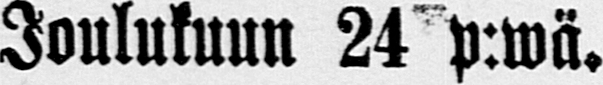Joulukuun 24 p:wä.
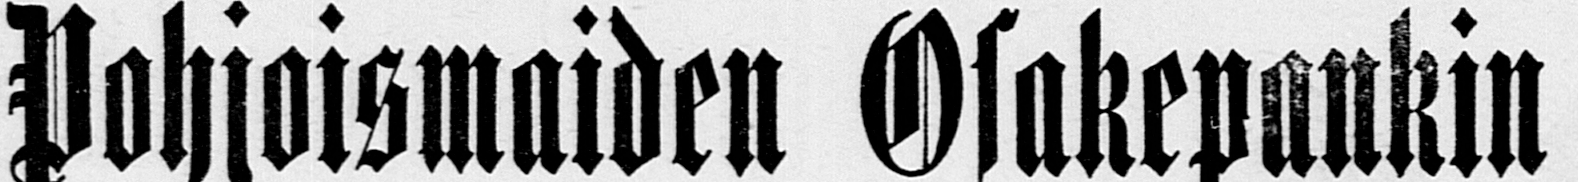Pohjoismaiden Osakepankin
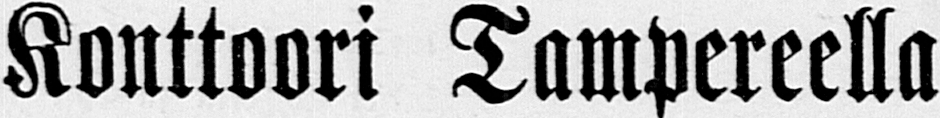Konttoori Tampereella
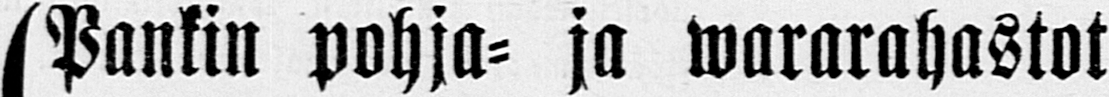Pankin pohja- ja wararahastot yhteensä
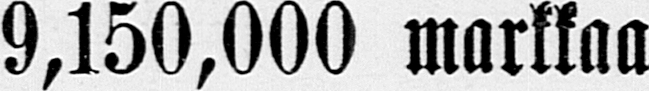9,150,000 markkaa
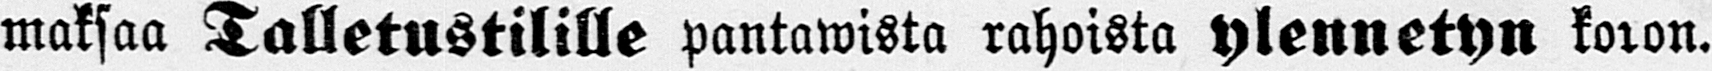maksaa Talletustilille pantawista rahoista ylennetyn koron.
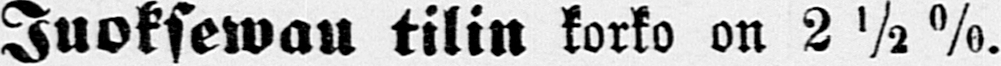Juoksewau tilin korko on 2½%.
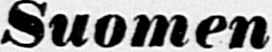Suomen
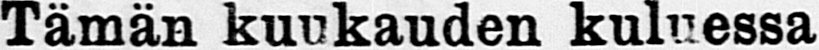Tämän kuukauden kuluessa
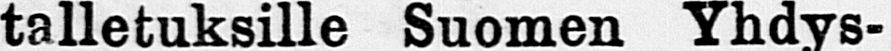talletuksille Suomen Yhdys-
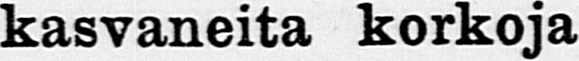Pankissa kasvaneita korkoja
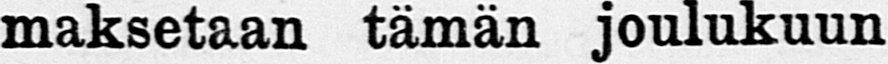maksetaan tämän joulukuun
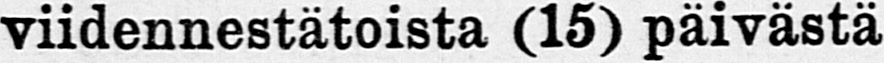viidennestätoista (15) päivästä
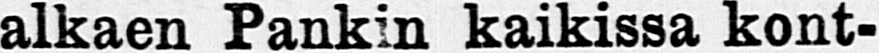alkaen Pankin kaikissa kont-
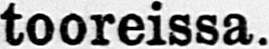tooreissa.
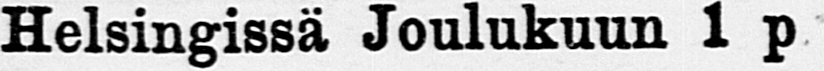Helsingissä Joulukuun 1 p
